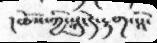།ཆོས་ཀྱི་སྐུ་དེ་རྟག་སྟེ་
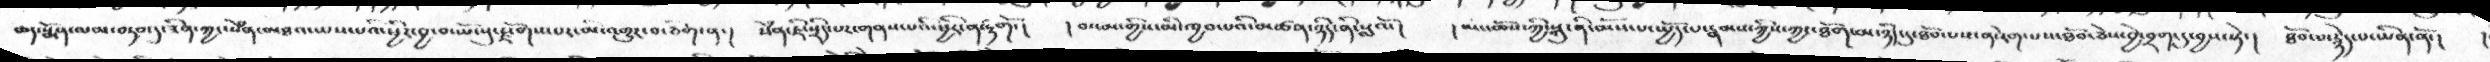ཆད་སྨོན་ལམ་བཏབ་དུ་ཟིན་ཀྱང་སེནཾ་མཐའ་ཡས་པའི་ཕྱིར་བྱ་བ་ཡོངསུ་་རྫོགས་པར་མི་འགྱུར་བ་ཅིག་ན་།  སེནཾ་ཇི་སྲིད་པར་གནས་པའི་ཕྱིར་ན་རྟགོ་།  །བསམ་གྱིས་མི་ཁྱབ་པའི་མཚན་ཉིད་ནི་སླའོ་།  །ཡང་ཆོས་ཀྱི་སྐུ་ནི་མོས་པ་སྤྱོད་པ་རྣམས་ཀྱིས་ཀྱང་ཐོག་མ་ཉིད་དུ་ཐོབ་པས་ན་རེག་པས་ཐོབ་ཅེས་བྱེ་བྲག་དུ་བྱས་སྟེ་།  ཐོབ་པ་རྙེད་པ་ཡིན་ནོ་།
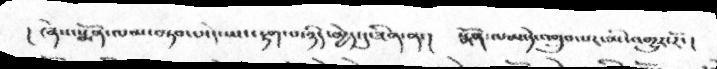།  ཞེས་སྨོན་ལམ་བཏབ་པ་དེ་ཡང་རྟག་པ་ཉིད་མྱེད་དུ་ཟིན་ན་།    སྨོན་ལམ་དེ་འགྲུབ་པར་མི་འགྱུར་རོ་།
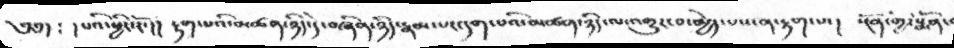༄༅།  ༴ །པའི་ཕྱིར་རོ་།།   རྟག་པའི་མཚན་ཉིད་དེ་བཞིན་ཉིད་རྣམ་པར་དག་པའི་མཚན་ཉིད་ལ་འགྱུར་བ་མྱེད་པས་ན་རྟག་པ་།   སྔོན་གྱི་སྨོན་
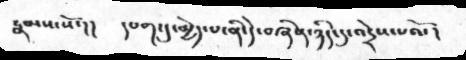རྣམས་སོ་།།   དཔག་དུ་མྱེད་པ་ནི་དེ་བཞིན་ཉིད་དུ་འདྲེས་པའོ་།
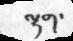ལྷག་
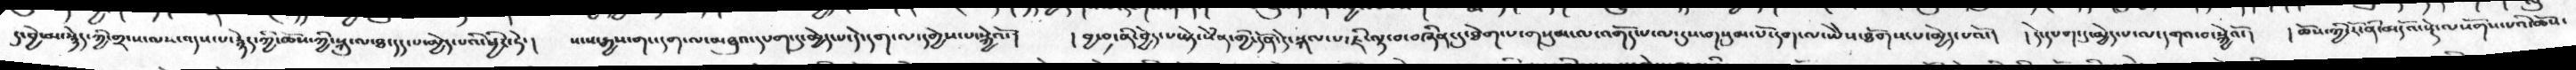དུ་བྱེ་མ་སྙེད་ཀྱི་གྲངས་ལས་འདས་པ་རྙེད་ཀྱི་ཆོས་ཀྱི་སྐུ་ལ་ཐ་དད་པ་མྱེད་པའི་ཕྱིར་ཏེ་།  སངས་རྒྱས་གང་དག་ལ་མཐུའ་དཔག་དུ་མྱེད་པ་དེ་དག་ལ་དགྱེས་པ་སྐྱེའོ་།   །བྱ་བ་ནི་བྱེད་པ་སྟེ་སེནཾ་གྱི་དོན་དེ་སྐལ་པ་ཇི་ལྟ་བ་བཞིན་དུ་ཐེག་པ་གསུམ་ལ་འགོད་པ་ལ་དུས་གསུམ་པོ་དག་ལ་ཡཻས་ཐོགས་པ་མྱེད་པའོ་།  །དེ་དཔག་དུ་མྱེད་པ་ལ་དགའ་བ་སྐྱེའོ་།   །ཆོས་ཀྱི་རོ་ནི་མདོའ་སྟེ་ལསོགས་པའི་ཆོས་
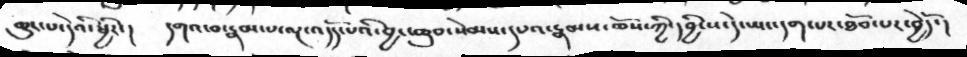ཆུང་པ་དེའི་ཕྱིར་།   དགའ་བ་རྣམ་པ་ལྔ་འདོད་པའི་བྱང་ཆུབ་སེམས་དཔའ་རྣམས་ཆོས་ཀྱི་དབྱིངས་དེ་ཡང་དག་པར་ཐོབ་པར་བྱེདོ་།
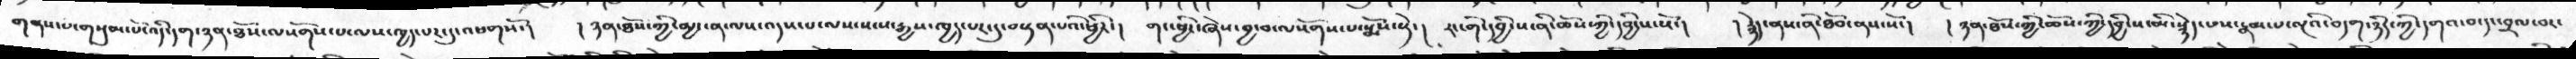གནས་པ་གསུམ་པོ་འདི་དག་ཉན་ཐོས་ལསོགས་པ་ལས་ཁྱད་པར་དུ་འཕགསོ་།   །ཉན་ཐོས་ཀྱི་མྱ་ངན་ལས་འདས་པ་ལས་སངས་རྒྱས་ཁྱད་པར་དུ་བསྟན་པའི་ཕྱིར་།  གང་ཕྱིར་ཞེས་བྱ་བ་ལསོགས་པ་སྨོས་སྟེ་།  རང་གི་དབྱིངཔ་ནི་ཆོས་ཀྱི་དབྱིངས་སོ་།  །རྙེད་ནས་ནི་ཐོས་ནས་སོ་།   །ཉན་ཐོས་ཀྱི་ཆོས་ཀྱི་དབྱིངས་མི་སྙེད་པས་རྣམ་པ་ལྔའི་བདག་ཉིད་ཀྱི་དགའ་བ་དང་བྲལ་བར་
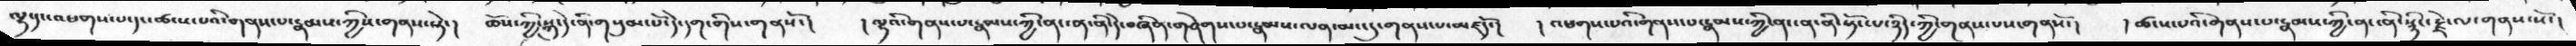ལྷ་དང་འཕགས་པ་དང་ཚངས་པའི་གནས་པ་རྣམས་ཀྱིས་གནས་སྟེ་།  ཆོས་ཀྱི་སྐུ་དེ་ནི་གསུམ་པོ་དེ་དག་གིས་གནསོ་།  །ལྷའི་གནས་པ་རྣམས་ཀྱི་ནང་ན་ནི་དེ་བཞིན་གཤེགས་པ་རྣམས་ལན་མང་དུ་གནས་པ་མཛདོ་།  །འཕགས་པའི་གནས་པ་རྣམས་ཀྱི་ནང་ན་ནི་སྟོང་པ་ཉིད་ཀྱི་གནས་པས་གནསོ་།   །ཚངས་པའི་གནས་པ་རྣམས་ཀྱི་ནང་ནི་སྙིང་རྗེ་ལ་གནས་སོ་།
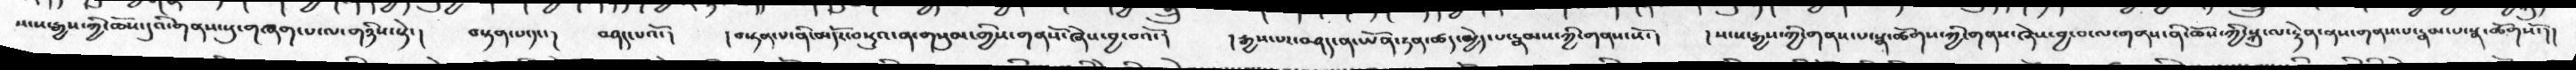སངས་རྒྱས་ཀྱི་ཆོས་དུའི་གནས་སུ་གཞག་པ་ལ་གཉིས་སྟེ་།  བསྟན་པ་དང་།   བཤད་པའོ་།   །བསྟན་པ་ནི་མདོར་བསྡུའ་ན་གསུམ་གྱིས་གནསོ་ཞེས་བྱ་བའོ་།   །རྒྱས་པར་བཤད་ན་ཡོན་ཏན་ཚད་མྱེད་པ་རྣམས་ཀྱི་གནས་སོ་།  །སངས་རྒྱས་ཀྱི་གནས་པ་སྣ་ཚོགས་ཀྱི་གནས་ཞེས་བྱ་བ་ལ་གནས་ནི་ཆོས་ཀྱི་སྐུ་ལ་རྟེན་ནས་གནས་པ་རྣམ་པ་སྣ་ཚོགསོ་།།
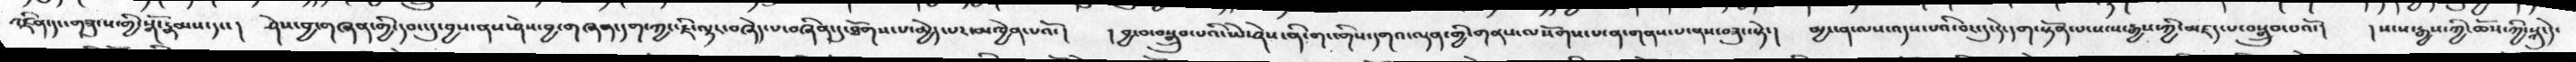འཛིན་དང་གཟུངས་ཀྱི་སྒོ་རྣམས་དང་།    ཤེས་བྱ་གཞན་གྱི་དབང་དུ་བྱས་ནས་ཤེས་བྱ་གཞན་དག་ཀྱང་ཇི་ལྟར་བཞེད་པ་བཞིན་དུ་ཐོགས་པ་མྱེད་པར་མཁྱེན་པའོ་།   ། བྱ་བ་བསྒྲུབ་པའི་ཡེ་ཤེས་ནི་གང་གིས་དགའ་ལྡན་གྱི་གནས་ལསོགས་པ་ན་གནས་པ་ནས་བཟུང་སྟེ་།    མྱ་ངན་ལས་འདས་པའི་བར་དུ་དེ་དག་སྟོན་པ་སངས་རྒྱས་ཀྱི་མཛད་པ་བསྒྲུབ་པའོ་།    ། སངས་རྒྱས་ཀྱི་ཆོས་ཀྱི་སྐུ་དེ་
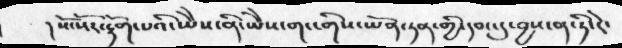སོ་སོར་རྟོག་པའི་ཡཻས་ནི་ཡཻས་གང་གིས་ཡོན་ཏན་གྱི་དབང་དུ་བྱས་ན་ཏི་ངེ་
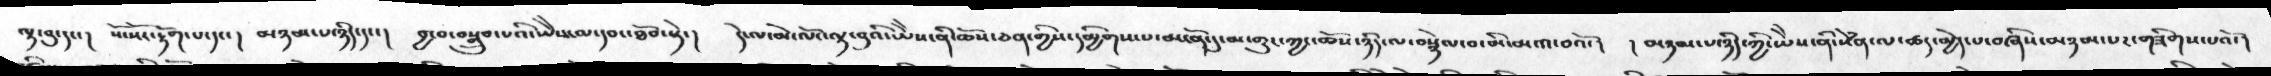ལྟ་བུ་དང་།  སོ་སོར་རྟོག་པ་དང་།  མཉམ་པ་ཉིད་དང་།   བྱ་བ་བསྒྲུབ་པའི་ཡཻས་ལ་དབང་ཐོབ་སྟེ་།   དེ་ལ་མེ་ལོང་ལྟ་བུའི་ཡཻས་ནི་ཆོས་ཅན་གྱིས་དམྱིགས་པ་མངོན་དུ་མ་གྱུར་ཀྱང་ཆོས་ཉིད་ལ་བསྙེལ་བ་མི་མངའ་བའོ་།   །མཉམ་པ་ཉིད་ཀྱི་ཡཻས་ནི་སེནཾ་ལ་ཚད་མྱེད་པ་བཞིས་མཉམ་པར་གཟིགས་པའོ་།
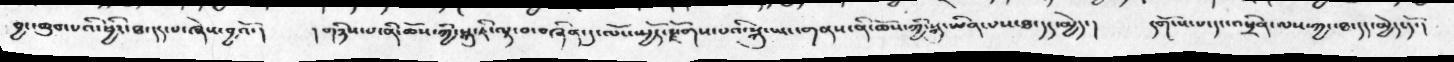བྱང་ཆུབ་པའི་ཕྱིར་ཐ་དད་པ་ཞེས་བྱའོ་།    །གཉིས་པ་ནི་ཆོས་ཀྱི་སྐུ་ཇི་ལྟ་བ་བཞིན་དུ་ལོངས་སྤྱོད་རྫོགས་པའི་སྐུ་ཡང་གནས་ནི་ཆོས་ཀྱི་སྐུ་ཡིན་པས་ཐ་དད་མྱེད་།   དགོངས་པ་དང་འཕྲིན་ལས་ཀྱང་ཐ་དད་མྱེད་དོ་།
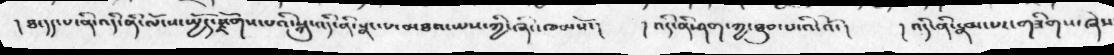། ཐ་དད་པ་ནི་འདི་ནི་ལོངས་སྤྱོད་རྫོགས་པའི་སྐུ་འདི་ནི་སྣང་པ་མཐའ་ཡས་ཀྱི་ཞིང་ཁམས་སོ་།    ། འདི་ནི་ཤག་ཀྱ་ཐུབ་པ་འི་འོ་།      །འདི་ནི་རྣམ་པར་གཟིགས་ཞེས
